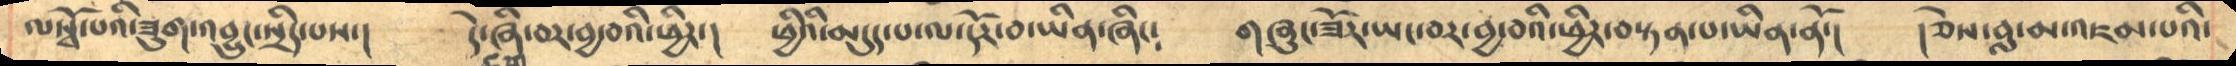ལསྭོ་པའི་ཟུག་འབྱུང་སྲིད་པས་།     དེ་ཞི་བར་བྱ་བའི་ཕྱིར་།   ཕྱིའི་མདུད་པ་ལ་དོར་བ་ཡིན་ཞིང༴  གཞུང་ཟོར་ཡང་བར་བྱ་བའི་ཕྱིར་བསྟན་པ་ཡིན་ནོ་།     །ཅེས་བླ་མ་འཇམ་པའི་
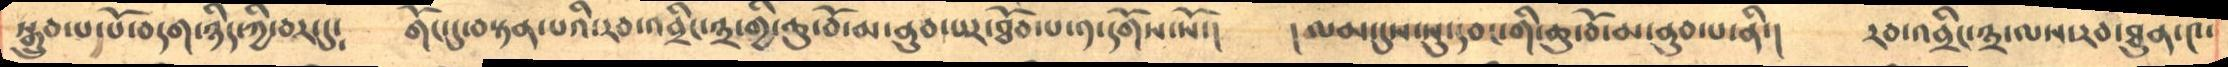སྒྲུབ་པ་པོ་བདག་ཉིད་ཀྱི་བར་དུ༴     གོང་དུ་བསྟན་པའི་རབ་འབྲིང་༣་གྱི་ཆུ་བོ་མ་ནུབ་པར་ཐོབ་པ་༡་དགོས་སོ་།    །ལམ་དུས་སུ་དབང་གི་ཆུ་བོ་མ་ནུབ་པ་ནི་།    རབ་འབྲིང་༣་ལས་རབ་ཐུན་༤་
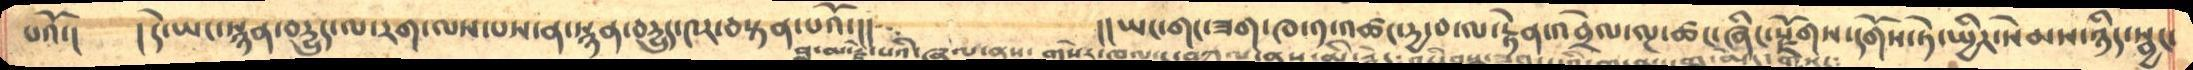པའོ་།     །དེ་ཡང་སྙན་བདྱུད་ལ་རག་ལས་པས་ན་སྙན་བདྱུད་༤ར་བསྟན་པའོ་།།      །།ཡང་གང་ཟག་ཁ་༡་འཚང་དྱ་བ་ལ་རྟེན་འབྲེལ་ལྔ་ཚང་ཞིང་རྫོགས་དགོས་ཏེ་སྤྱིར་སེམས་ཉིད་སྦྱང་
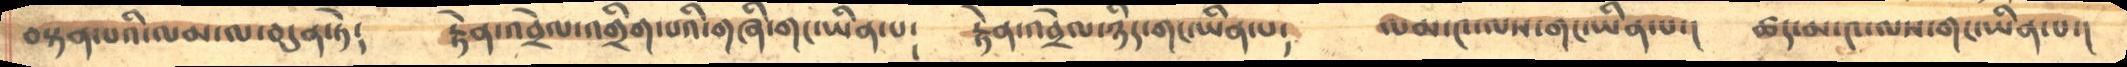བསྟན་པའི་ལམ་ལ་བདུན་ཏེ༴    རྟེན་འབྲེལ་འགྲིག་པའི་གཞི་གང་ཡིན་པ༴   རྟེན་འབྲེལ་ཉིད་ཡིན་པ༴   ལམ་༤་ལས་གང་ཡིན་པ་།   ཚད་མ་༤་ལས་གང་ཡིན་པ་།
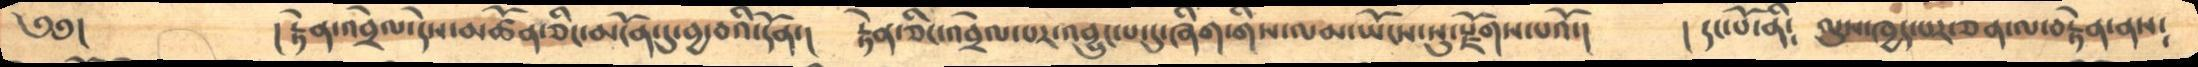༄༅།          །རྟེན་འབྲེལ་དེས་མཚོན་ཅིང་མངོན་དུ་བྱ་བའི་དོན་།   རྟེན་ཅིང་འབྲེལ་པར་འབྱུང་པ་དུ་ཞིག་གིས་ལམ་ཡོངས་སུ་རྫོགས་པའོ་།    །དང་པོ་ནི༴  ལུས་ཁྱད་པར་ཅན་ལ་བརྟེན་ནས༴
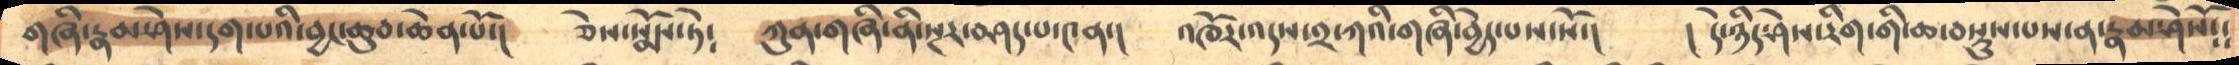གཞི་རྣམ་ཤེས་དག་པའི་བྱང་ཆུབ་ཆེན་པོ་།    ཅེས་སྨོས་ཏེ༴      ཀུན་གཞི་ནི་སྔར་བཤད་པ་༤ན་།    འཁོར་འདས་༢་ཀའི་གཞི་བྱེད་པས་སོ་།    ། དེ་ཉིད་ཤེས་རིག་གི་ཆ་བསྡུས་པས་ན་རྣམ་ཤེསོ༴༴
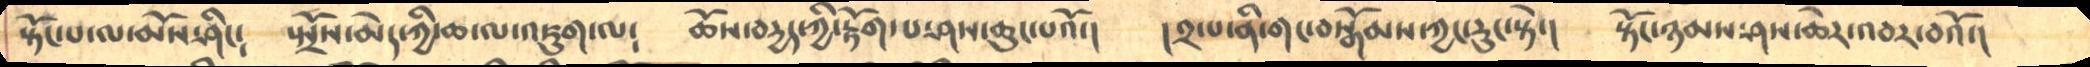སྟོང་པ་ལ་མོས་ཤིང༴     སྤྲོས་མེད་ཀྱི་ཆ་ལ་འཇུག་ལ༴   ཆོས་བདྱད་ཀྱི་རྟོག་པ་ཤས་ཆུང་པའོ་།   །༢་པ་ནི་གང་བསྒོམས་ཀྱང་རུང་སྟེ་།   སྟོང་ཉམས་ཤས་ཆེར་འབར་བའོ་།
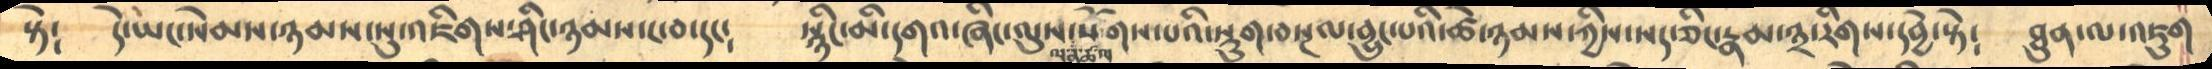སྟེ༴  དེ་ཡང་སེམས་ཉམས་སུ་འཇིགས་ཤིང་ཉམས་ང་བ་དང།༴  སྙིང་མི་དགའ་ཞིང་ལུས་སོགས་པའི་སྡུག་བསྔལ་བྱུང་པའི་ཚེ་ཉམས་ཀྱིས་སད་ཅིང་རྣམ་༣་རིགས་དབྱེ་སྟེ༴  ཐུན་ལ་འཇུག
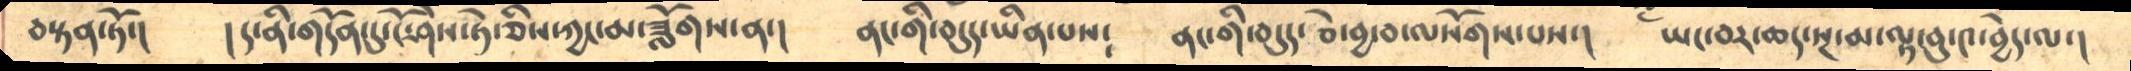བསྟན་ཏོ་།     །ད་ནི་གདོན་དུ་ངོ་ཤེས་ཏེ་ཅིས་ཀྱང་མ་ཟློགས་ན་།    ནང་གི་བདུད་ཡིན་པས༴   ནང་གི་བདུད་ཅེ་བྱ་བ་ལསོགས་པས་།   ཡང་བར་ཆད་སྔ་མ་ལྟ་བུ་༤་བྱེད་ལ་།
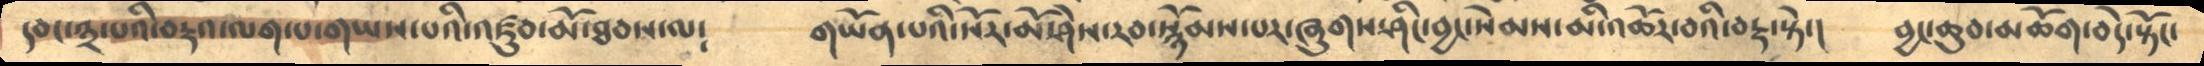དབང་༣་པའི་བརྡའ་ལག་པ་གཡས་པའི་འཛུབ་མོ་ཐབས་ལ༴     གཡོན་པའི་སོར་མོ་ཤེས་རབ་སྙོམས་པར་ཞུགས་ཤིང་བྱང་སེམས་མི་འཆོར་བའི་བརྡ་སྟེ་།    བྱང་ཆུབ་མཆོག་བདེ་སྟོང་
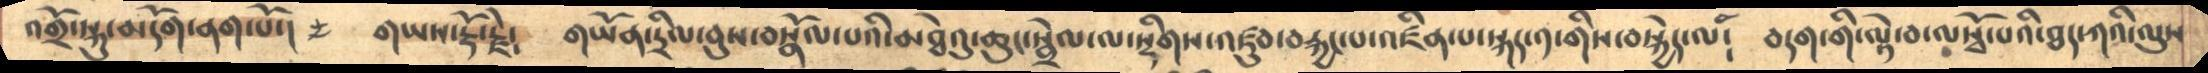འགྲོ་སྐུ་མདོག་ནག་པོ་།   གཡས་རྡོ་རྗེ༴  གཡོན་དྲིལ་བུས་བསྣོལ་པའི་མཐེའུ་ཆུང་སྦྲེལ་ལ་སྡིགས་འཛུབ་བརྐྱང་པ་འཛིན་པ་སྐད་༡་གིས་བསྐྱེད་ལ༴   བདག་གི་ལྟེ་བ་ལསྭོ་པའི་ཐད་ཀའི་ལུས
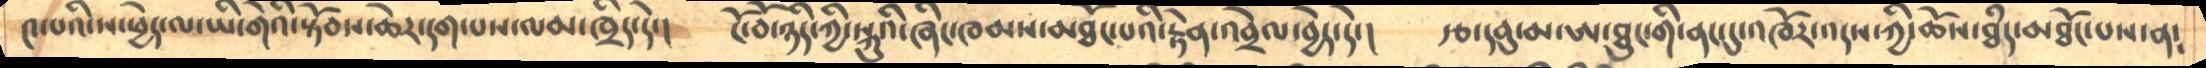༤་པའི་ས་ཕྱེད་ལ་ཡི་གེའི་སྟོབས་ཆེར་དག་པས་ལམ་ཁྲིད་དེ་།    ངོ་བོ་ཉིད་ཀྱི་སྐུའི་ཞིང་ཁམས་མཐོང་པའི་རྟེན་འབྲེལ་བྱེད་དེ་།    རྩ་དབུ་མ་ཨ་ཐུང་གི་ནང་དུ་འཁོར་འདས་ཀྱི་ཆོས་ཐཾད་མཐོང་པས་ན༴
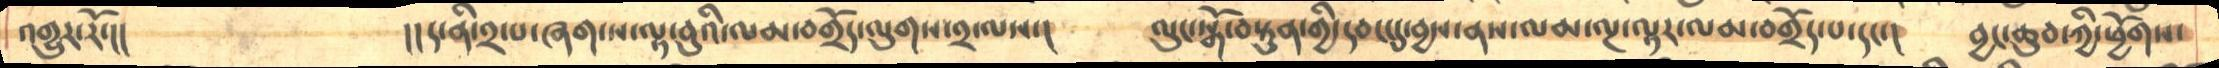འགྱུར་རོ་།།           །།ད་ནི་༢་པ་ཞག་པ་ལྟ་བུའི་ལམ་བགྲོད་ལུགས་༢་ལས་།   ལུང་སྒོ་བསྟུན་གྱི་དབང་དུ་བྱས་ནས་ལམ་ལྔ་ལྟར་ལམ་བགྲོད་པ་དང་།་  བྱང་ཆུབ་ཀྱི་ཕྱོགས་
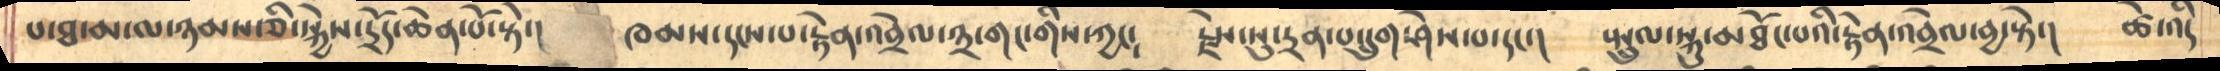པ་ཐ་མ་མ་ཉམས་ཅི་སྐྱེས་དྲོད་ཆེན་པོ་སྟེ་།     ཁམས་དངས་པ་རྟེན་འབྲེལ་༣་གང་གིས་ཀྱང༴    རྗེས་སུ་དྲན་པ་དྲུག་ཤེས་པ་དང་།   སྤྲུལ་སྐུ་མཐོང་པའི་རྟེན་འབྲེལ་བྱ་སྟེ་།   ཚེ་འདི
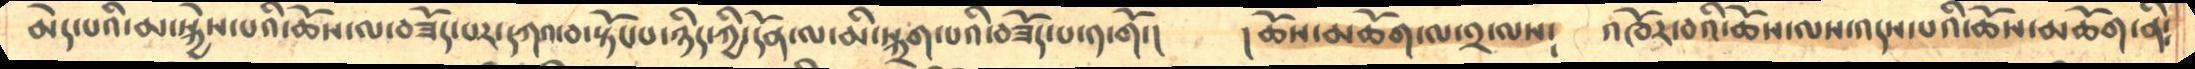མེད་པའི་མ་སྐྱེས་པའི་ཆོས་ལ་བཟོད་པར་དཀའ་བ་སྟོང་པ་ཉིད་ཀྱི་དོན་ལ་མི་སྐྲག་པའི་བཟོད་པ་༡་གོ་།    །ཆོས་མཆོག་ལ་༢་ལས༴   འཁོར་བའི་ཆོས་ལས་འདས་པའི་ཆོས་མཆོག་ནི༴
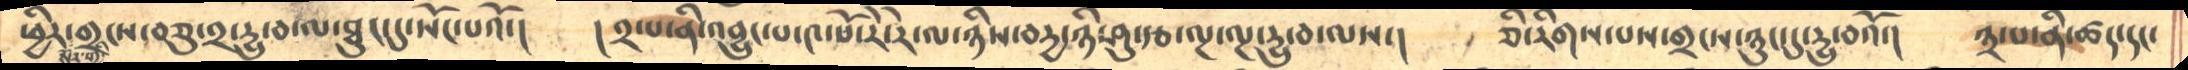ཕྱིར་གྲངས་བཅུ་༢་དྱུ་བ་ལ་ཐུང་དུ་སོང་པའོ་།  །༢་པ་ནི་འབྱུང་པ་༤་པོ་རེ་རེ་ལ་ཉིས་བདྱ་ཉི་ཤུ་རྩ་ལྔ་ལྔ་དྱུ་བ་ལས་།  ཅི་རིགས་པས་གྲངས་ཉུང་དུ་དྱུ་བའོ་།  ༣་པ་ནི་ཚད་དང་
